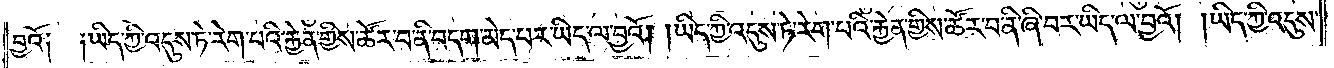བྱའོ༏ ༏ཡིད་ཀྱི་འདུས་ཏེ་རེག་པའི་རྐྱེན་གྱིས་ཚོར་བ་ནི་བདག་མེད་པར་ཡིད་ལ་བྱའོ། །ཡིད་ཀྱི་འདུས་ཏེ་རེག་པའི་རྐྱེན་གྱིས་ཚོར་བ་ནི་ཞི་བར་ཡིད་ལ་བྱའོ། །ཡིད་ཀྱི་འདུས་
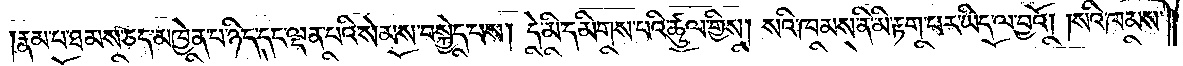རྣམ་པ་ཐམས་ཅད་མཁྱེན་པ་ཉིད་དང་ལྡན་པའི་སེམས་བསྐྱེད་པས། དེ་མི་དམིགས་པའི་ཚུལ་གྱིས། སའི་ཁམས་ནི་མི་རྟག་པར་ཡིད་ལ་བྱའོ། །སའི་ཁམས་
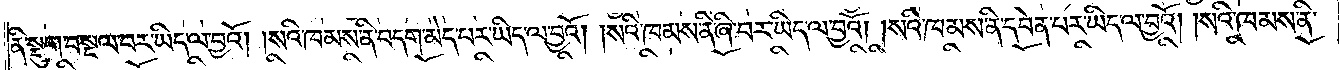ནི་སྡུག་བསྔལ་བར་ཡིད་ལ་བྱའོ། །སའི་ཁམས་ནི་བདག་མེད་པར་ཡིད་ལ་བྱའོ། །སའི་ཁམས་ནི་ཞི་བར་ཡིད་ལ་བྱའོ། །སའི་ཁམས་ནི་དབེན་པར་ཡིད་ལ་བྱའོ། །སའི་ཁམས་ནི་
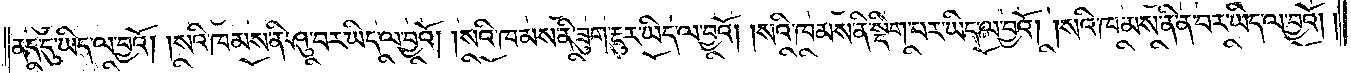ནད་དུ་ཡིད་ལ་བྱའོ། །སའི་ཁམས་ནི་ཤུ་བར་ཡིད་ལ་བྱའོ། །སའི་ཁམས་ནི་ཟུག་རྔུར་ཡིད་ལ་བྱའོ། །སའི་ཁམས་ནི་སྡིག་པར་ཡིད་ལ་བྱའོ། །སའི་ཁམས་ནི་ན་བར་ཡིད་ལ་བྱའོ། །
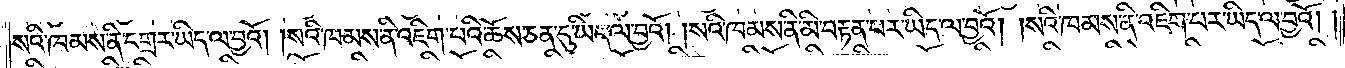སའི་ཁམས་ནི་དགྲར་ཡིད་ལ་བྱའོ། །སའི་ཁམས་ནི་འཇིག་པའི་ཆོས་ཅན་དུ་ཡིད་ལ་བྱའོ། །སའི་ཁམས་ནི་མི་བརྟན་པར་ཡིད་ལ་བྱའོ། །སའི་ཁམས་ནི་འཇིག་པར་ཡིད་ལ་བྱའོ། །
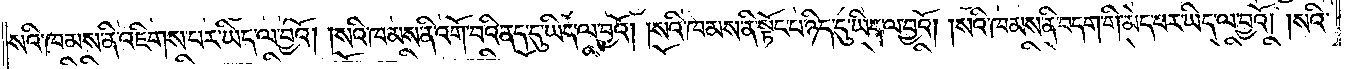སའི་ཁམས་ནི་འཇིགས་པར་ཡིད་ལ་བྱའོ། །སའི་ཁམས་ནི་འགོ་བའི་ནད་དུ་ཡིད་ལ་བྱའོ། །སའི་ཁམས་ནི་སྟོང་པ་ཉིད་དུ་ཡིད་ལ་བྱའོ། །སའི་ཁམས་ནི་བདག་གི་མེད་པར་ཡིད་ལ་བྱའོ། །སའི་
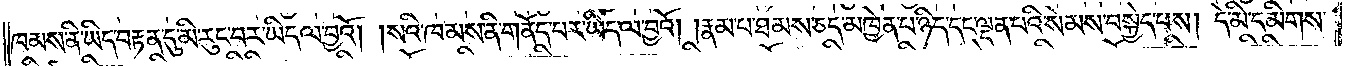ཁམས་ནི་ཡིད་བརྟན་དུ་མི་རུང་བར་ཡིད་ལ་བྱའོ། །སའི་ཁམས་ནི་གནོད་པར་ཡིད་ལ་བྱའོ། །རྣམ་པ་ཐམས་ཅད་མཁྱེན་པ་ཉིད་དང་ལྡན་པའི་སེམས་བསྐྱེད་པས། དེ་མི་དམིགས་
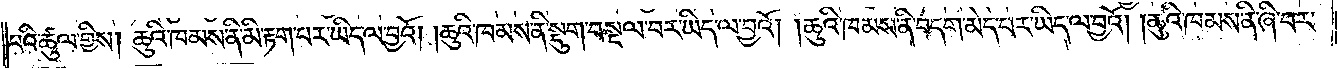པའི་ཚུལ་གྱིས། ཆུའི་ཁམས་ནི་མི་རྟག་པར་ཡིད་ལ་བྱའོ། །ཆུའི་ཁམས་ནི་སྡུག་བསྔལ་བར་ཡིད་ལ་བྱའོ། །ཆུའི་ཁམས་ནི་བདག་མེད་པར་ཡིད་ལ་བྱའོ། །ཆུའི་ཁམས་ནི་ཞི་བར་
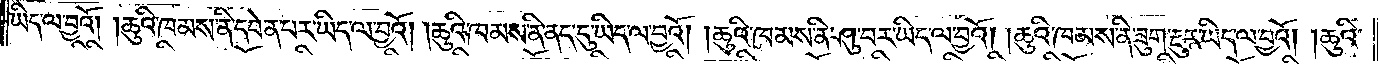ཡིད་ལ་བྱའོ། །ཆུའི་ཁམས་ནི་དབེན་པར་ཡིད་ལ་བྱའོ། །ཆུའི་ཁམས་ནི་ནད་དུ་ཡིད་ལ་བྱའོ། །ཆུའི་ཁམས་ནི་ཤུ་བར་ཡིད་ལ་བྱའོ། །ཆུའི་ཁམས་ནི་ཟུག་རྔུར་ཡིད་ལ་བྱའོ། །ཆུའི་
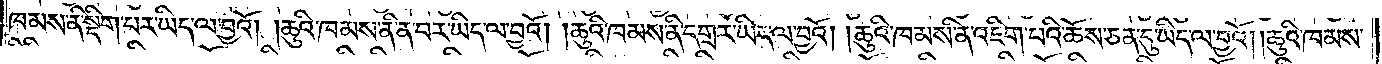ཁམས་ནི་སྡིག་པར་ཡིད་ལ་བྱའོ། །ཆུའི་ཁམས་ནི་ན་བར་ཡིད་ལ་བྱའོ། །ཆུའི་ཁམས་ནི་དགྲར་ཡིད་ལ་བྱའོ། །ཆུའི་ཁམས་ནི་འཇིག་པའི་ཆོས་ཅན་དུ་ཡིད་ལ་བྱའོ། །ཆུའི་ཁམས་
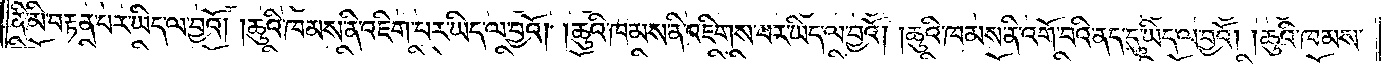ནི་མི་བརྟན་པར་ཡིད་ལ་བྱའོ། །ཆུའི་ཁམས་ནི་འཇིག་པར་ཡིད་ལ་བྱའོ། །ཆུའི་ཁམས་ནི་འཇིགས་པར་ཡིད་ལ་བྱའོ། །ཆུའི་ཁམས་ནི་འགོ་བའི་ནད་དུ་ཡིད་ལ་བྱའོ། །ཆུའི་ཁམས་
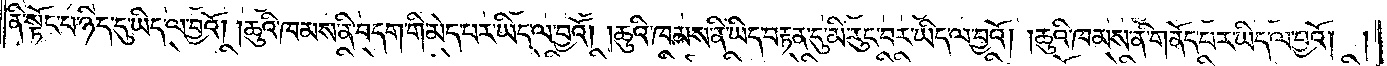ནི་སྟོང་པ་ཉིད་དུ་ཡིད་ལ་བྱའོ། །ཆུའི་ཁམས་ནི་བདག་གི་མེད་པར་ཡིད་ལ་བྱའོ། །ཆུའི་ཁམས་ནི་ཡིད་བརྟན་དུ་མི་རུང་བར་ཡིད་ལ་བྱའོ། །ཆུའི་ཁམས་ནི་གནོད་པར་ཡིད་ལ་བྱའོ། །
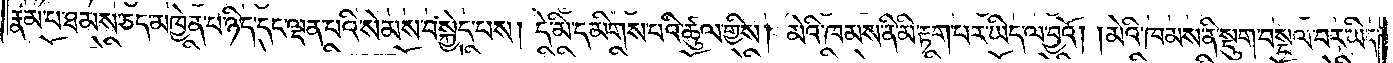རྣམ་པ་ཐམས་ཅད་མཁྱེན་པ་ཉིད་དང་ལྡན་པའི་སེམས་བསྐྱེད་པས། དེ་མི་དམིགས་པའི་ཚུལ་གྱིས། མེའི་ཁམས་ནི་མི་རྟག་པར་ཡིད་ལ་བྱའོ། །མེའི་ཁམས་ནི་སྡུག་བསྔལ་བར་ཡིད་
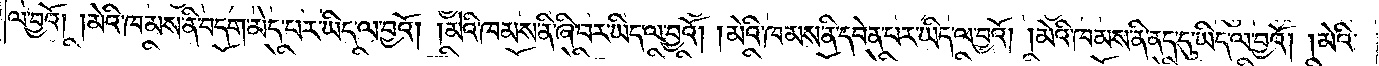ལ་བྱའོ། །མེའི་ཁམས་ནི་བདག་མེད་པར་ཡིད་ལ་བྱའོ། །མེའི་ཁམས་ནི་ཞི་བར་ཡིད་ལ་བྱའོ། །མེའི་ཁམས་ནི་དབེན་པར་ཡིད་ལ་བྱའོ། །མེའི་ཁམས་ནི་ནད་དུ་ཡིད་ལ་བྱའོ། །མེའི་
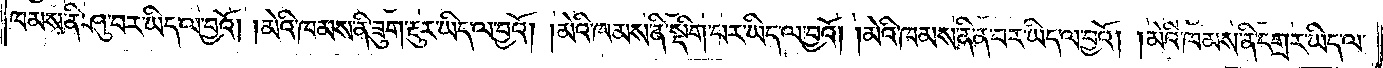ཁམས་ནི་ཤུ་བར་ཡིད་ལ་བྱའོ། །མེའི་ཁམས་ནི་ཟུག་རྔུར་ཡིད་ལ་བྱའོ། །མེའི་ཁམས་ནི་སྡིག་པར་ཡིད་ལ་བྱའོ། །མེའི་ཁམས་ནི་ན་བར་ཡིད་ལ་བྱའོ། །མེའི་ཁམས་ནི་དགྲར་ཡིད་ལ་
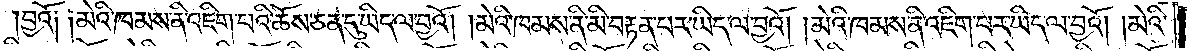བྱའོ༏ ༏མའི་ཁམས་ནི་འཇིག་པའི་ཆོས་ཅན་དུ་ཡིད་ལ་བྱའོ། །མེའི་ཁམས་ནི་མི་བརྟན་པར་ཡིད་ལ་བྱའོ། །མེའི་ཁམས་ནི་འཇིག་པར་ཡིད་ལ་བྱའོ། །མེའི་
